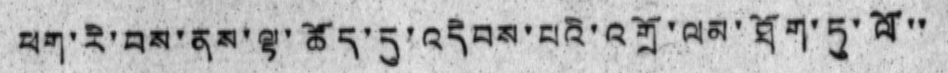ཕག་རི་བས་ནས་ལྟ་ཚོད་དུ་འདེབས་པའི་འགྲོ་ལམ་ཐོག་ཏུ་ལོ་་
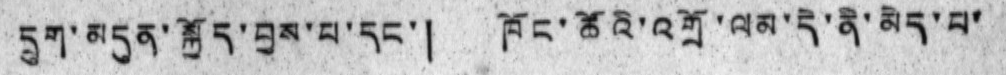དྲུག་མདུན་སྐྱོད་བྱས་པ་དང་། ཁོང་ཚོའི་འགྲོ་ལམ་དེ་ནི་མེད་པ་
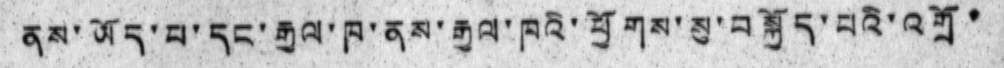ནས་ཡོད་པ་དང་རྒྱལ་ཁ་ནས་རྒྱལ་ཁའི་ཕྱོགས་སུ་བསྐྱོད་པའི་འགྲོ་
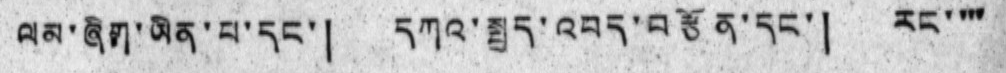ལམ་ཞིག་ཡིན་པ་དང་། དཀའ་སྤྱད་འབད་བརྩོན་དང་། རང་་་་
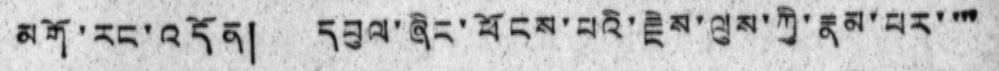མགོ་རང་འདོན། དབུལ་ཞིང་ཕོངས་པའི་རྗེས་ལུས་ཀྱི་རྣམ་པར་་་་
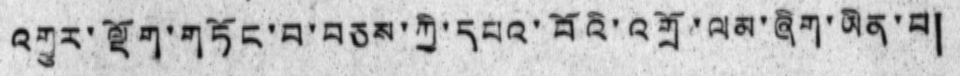འགྱུར་ལྡོག་གཏོང་བ་བཅས་ཀྱི་དཔའ་བོའི་འགྲོ་ལམ་ཞིག་ཡིན་པ།
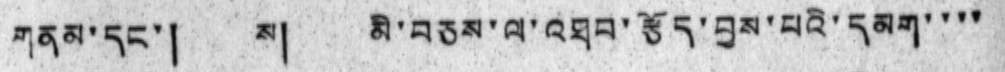གནམ་དང་། ས། མི་བཅས་ལ་འཐབ་རྩོད་བྱས་པའི་དམག་་་་
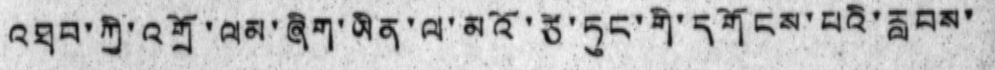འཐབ་ཀྱི་འགྲོ་ལམ་ཞིག་ཡིན་ལ་མའོ་ཙེ་ཏུང་གི་དགོངས་པའི་རླབས་
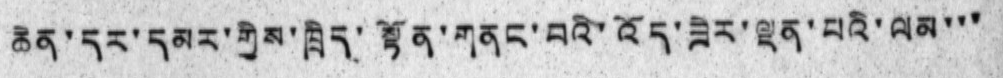ཆེན་དར་དམར་གྱིས་ཁྲིད་སྟོན་གནང་བའི་འོད་ཟེར་ལྡན་པའི་ལམ་་་
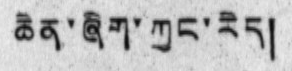ཆེན་ཞིག་ཀྱང་རེད།
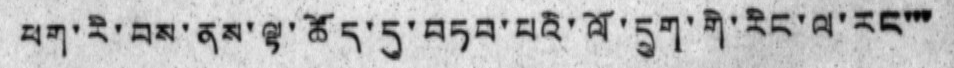ཕག་རི་བས་ནས་ལྟ་ཚོད་དུ་བཏབ་པའི་ལོ་དྲུག་གི་རིང་ལ་རང་་་
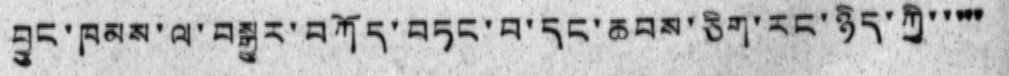བྱུང་ཁམས་ལ་བསྒྱུར་བཀོད་བཏང་བ་དང་ཆབས་ཅིག་རང་ཉིད་ཀྱི་་་་་
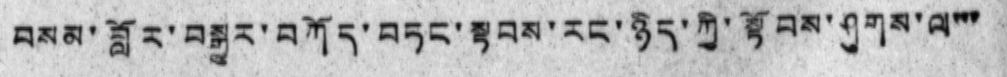བསམ་བློར་བསྒྱུར་བཀོད་བཏང་སྟབས་རང་ཉིད་ཀྱི་སྟོབས་ཤུགས་ལ་་་
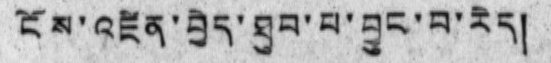ངོས་འཛིན་བྱེད་ཐུབ་པ་བྱུང་བ་རེད།
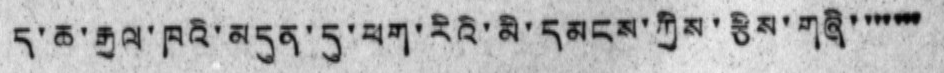ད་ཆ་རྒྱལ་ཁའི་མདུན་དུ་ཕག་རིའི་མི་དམངས་ཀྱིས་རྩིས་གཞི་ ་་་་་་
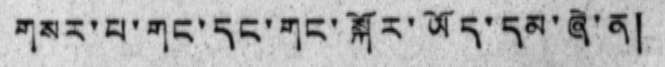གསར་པ་གང་དང་གང་སྐོར་ཡོད་དམ་ཞི་ན།
